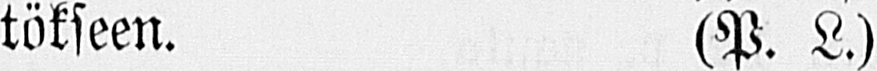tökseen. (P. L.)
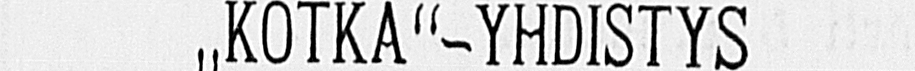„KOTKA"-YHDISTYS
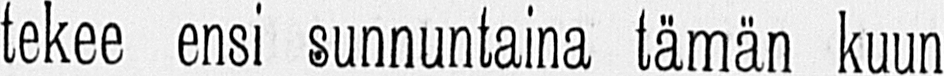tekee ensi sunnuntaina tämän kuun
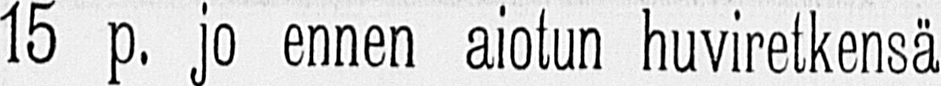15 p. jo ennen aiotun huviretkensä
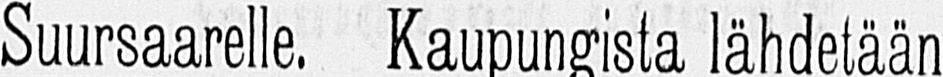Suursaarelle. Kaupungista lähetään
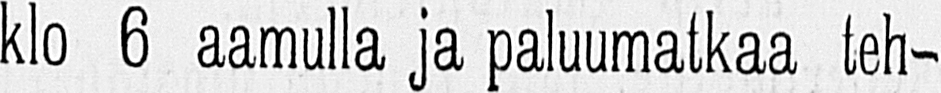klo 6 aamulla paluumatkaa teh-
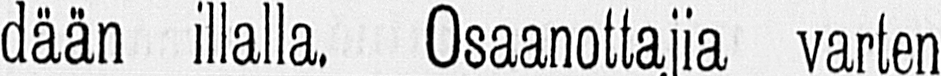daän illalla. Osaanottajia varten
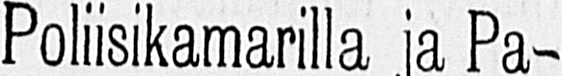löytyy listoja Poliisikamarilla ja Pa-
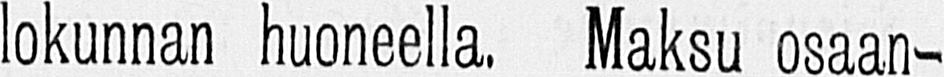lokunnan huoneella. Maksu osaan-
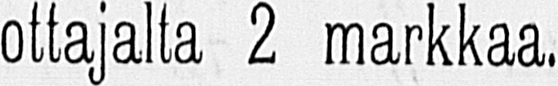ottajalta 2 markkaa.
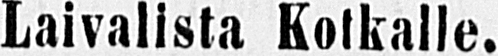Laivalista Kotkalle.
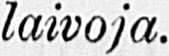Sisään tulleita laivoja.
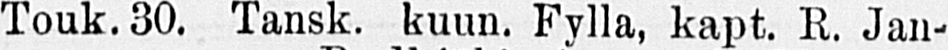Touk.30. Tansk. kuun. Fylla, kapt. R. Jan-
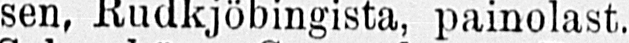sen, Rudkjöbingista, painolast.
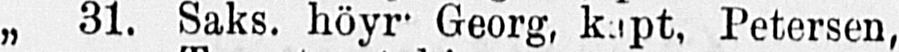„ 31. Saks. höyr Georg. kapt, Petersen,
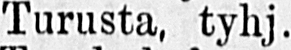Turusta, tyhj.
